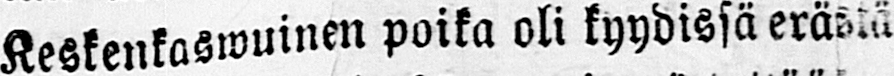Keskenkaswuinen poika oli kyydissä erästä
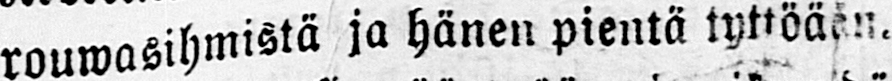rouwasihmistä ja hänen pientä tyttöään..
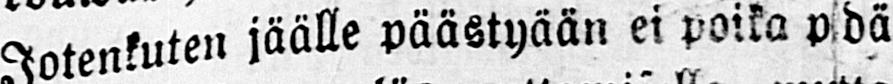Jotenkuten jäälle päästyään ei poika pidä
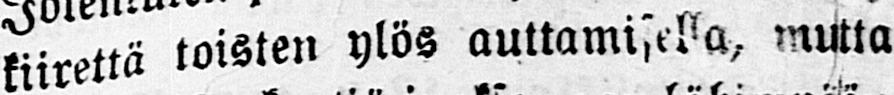kiirettä toisten ylös auttamisella, mutta
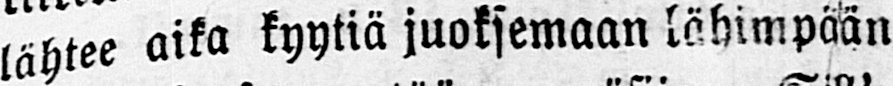lähtee aika kyytiä juoksemaan lähimpään
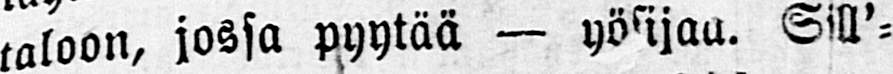taloon, jossa pyytää — yösijaa. Sill'-
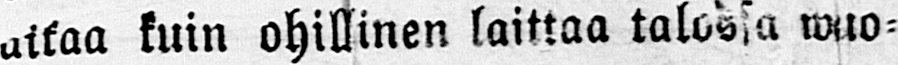aikaa kuin ohillinen laittaa talossa wuo-
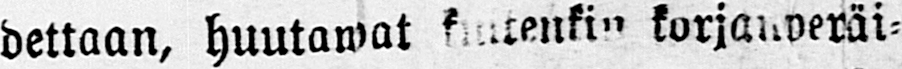dettaan, huutawat kuitenkin korjanperäi-
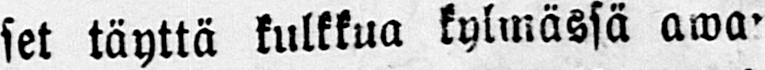set täyttä kulkkua kylmässä awannossa
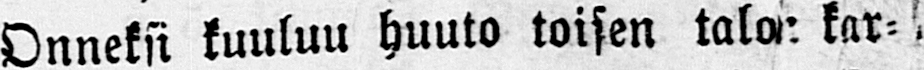Onneksi kuuluu huuto toisen talon kar-
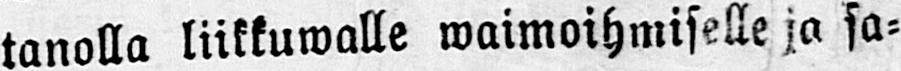tanolla liikkuwalle waimoihmiselle ja sa-
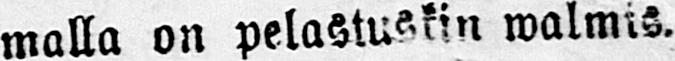malla on pelastuskin walmis.
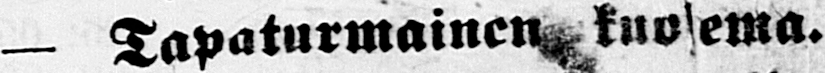— Tapaturmainen kuolema.
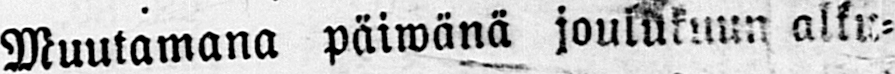Muutamana päiwänä joulukuun alku-
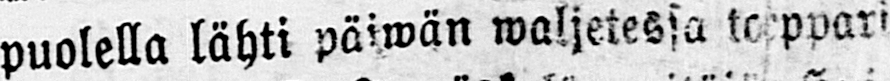puolella lähti päiwän waljetessa torppari
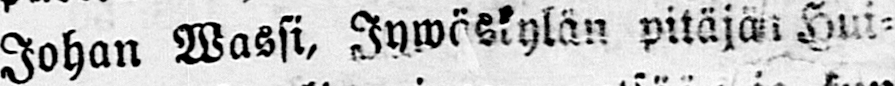Johan Wassi, Jywäskylän pitäjän Hui-
